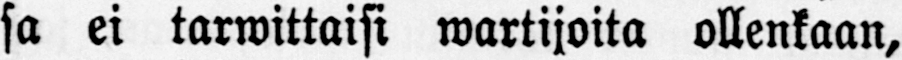sa ei tarwittaisi wartijoita ollenkaan,
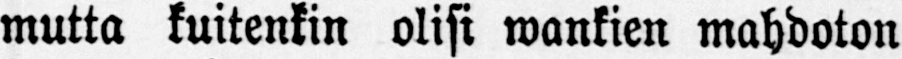mutta kuitenkin olisi wankien mahdoton
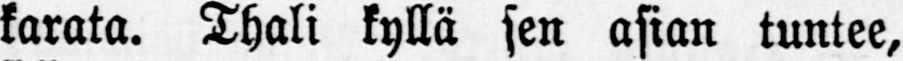karata. Thali kyllä sen asian tuntee,
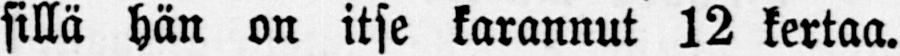sillä hän on itse karannut 12 kertaa.
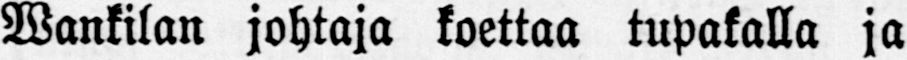Wankilan johtaja koettaa tupakalla ja
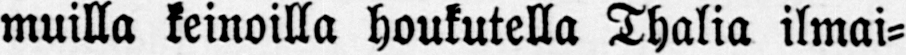muilla keinoilla houkutella Thalia ilmai-
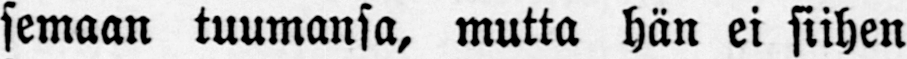semaan tuumansa, mutta hän ei siihen
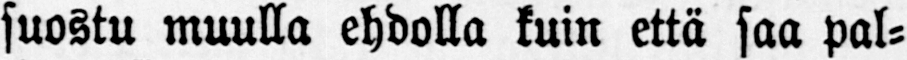suostu muulla ehdolla kuin että saa pal-
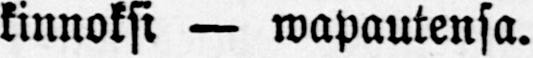kinnoksi — wapautensa.
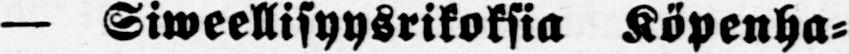— Siweellisyysrikoksia Köpenha-
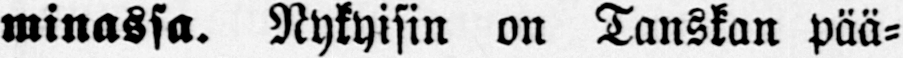minassa. Nykyisin on Tanskan pää-
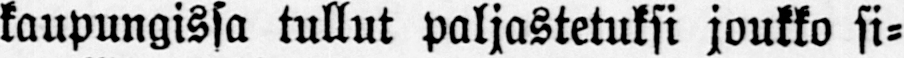kaupungissa tullut paljastetuksi joukko si-
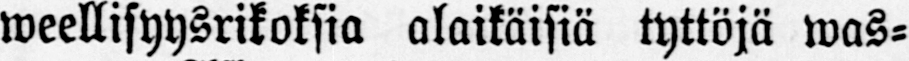weellisyysrikoksia alaikäisiä tyttöjä was-
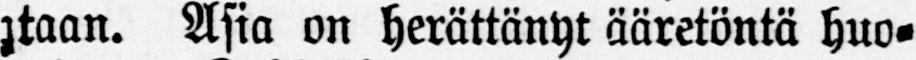taan. Asia on herättänyt ääretöntä huo-
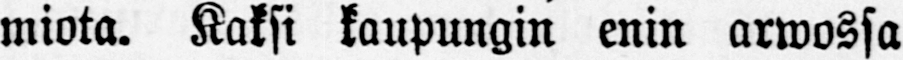miota. Kaksi kaupungin enin arwossa
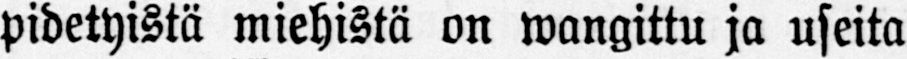pidetyistä miehistä on wangittu ja useita
